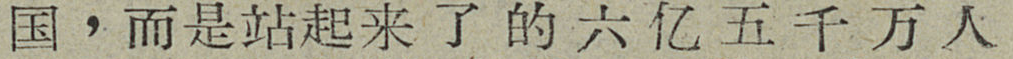国，而是站起来了的六亿五千万人
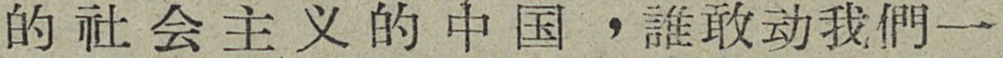的社会主义的中国，誰敢动我們一
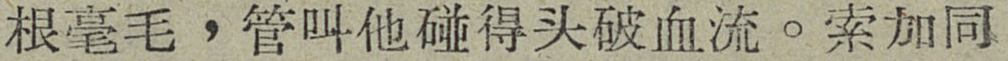根毫毛，管叫他碰得头破血流。索加同
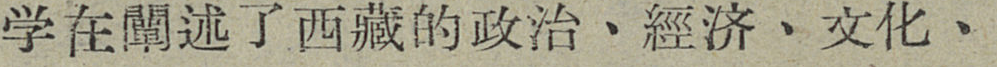学在闡述了西藏的政治、經济、文化、
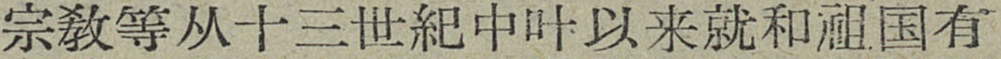宗敎等从十三世紀中叶以来就和祖国有
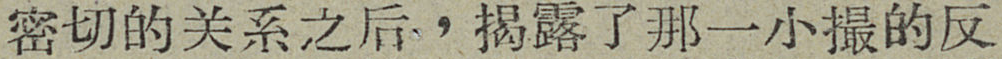密切的关系之后，揭露了那一小撮的反
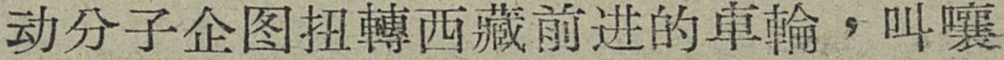动分子企图扭轉西藏前进的車輪，叫嚷
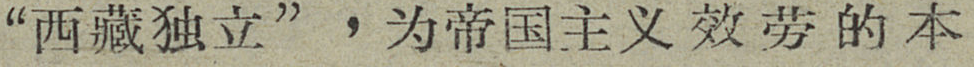“西藏独立”，为帝国主义效劳的本
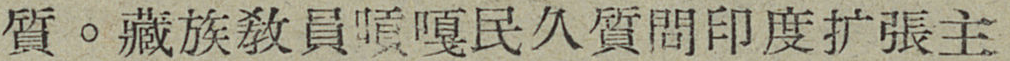質。藏族敎員嗊嘎民久質問印度扩張主
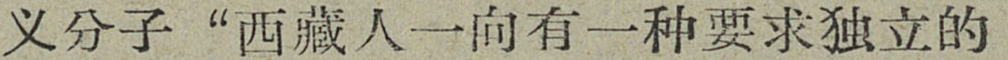义分子“西藏人一向有一种要求独立的
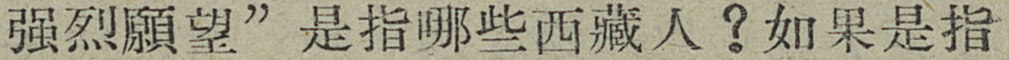强烈願望”是指哪些西藏人？如果是指
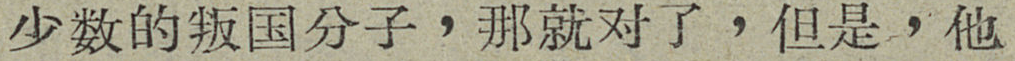少数的叛国分子，那就对了，但是，他
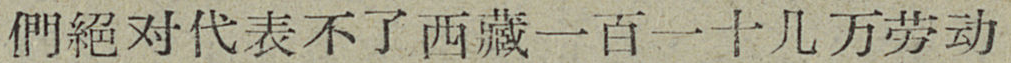們絕对代表不了西藏一百一十几万劳动
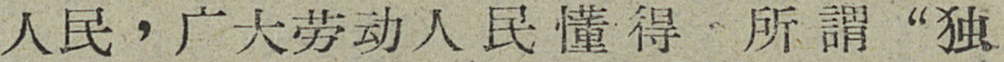人民，广大劳动人民懂得，所謂“独
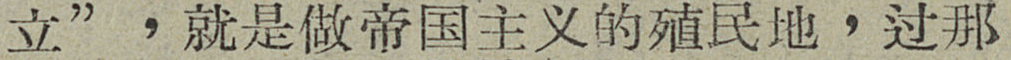立”，就是做帝国主义的殖民地，过那
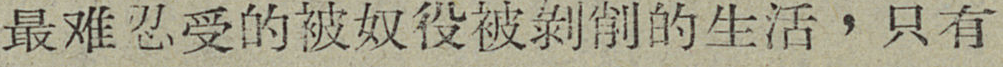最难忍受的被奴役被剝削的生活，只有
